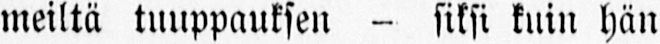meiltä tuuppauksen - siksi kuin hän
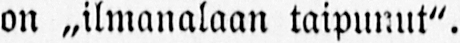on „ilmanalaan taipunut".
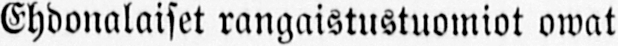Ehdonalaiset rangaistustuomiot owat
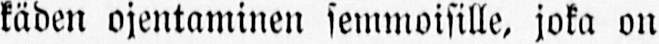käden ojentaminen semmoisille, joka on
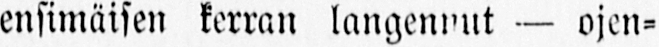ensimäisen kerran langennut — ojen-
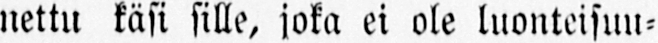nettu käsi sille, joka ei ole luonteisuu-
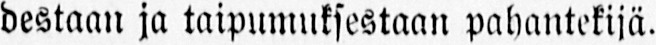destaan ja taipumuksestaan pahantekijä.
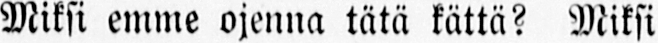Miksi emme ojenna tätä kättä? Miksi
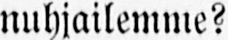nuhjailemme?
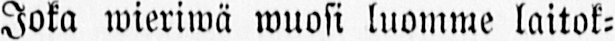Joka wieriwä wuosi luomme laitok-
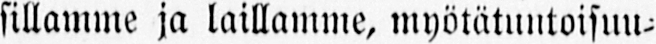sillamme ja laillamme, myötätuntuisuu-
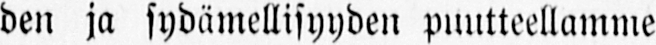den ja sydämellisyyden puutteellamme
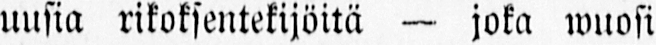uusia rikoksentekijöitä — joka wuosi
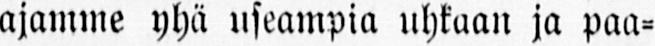ajamme yhä useampia uhkaan ja paa-
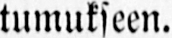tumukseen.
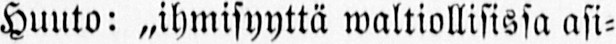Huuto: „ihmisyyttä waltiollisissa asi-
